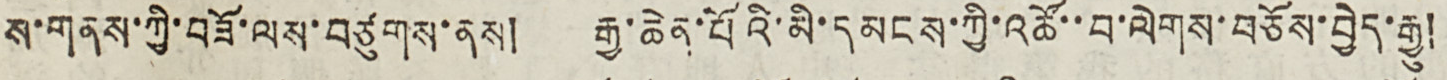ས་གནས་ཀྱི་བཟོ་ལས་བཙུགས་ནས། རྒྱ་ཆེན་པོའི་མི་དམངས་ཀྱི་འཚོ་་བ་ལེགས་བཅོས་བྱེད་རྒྱུ།
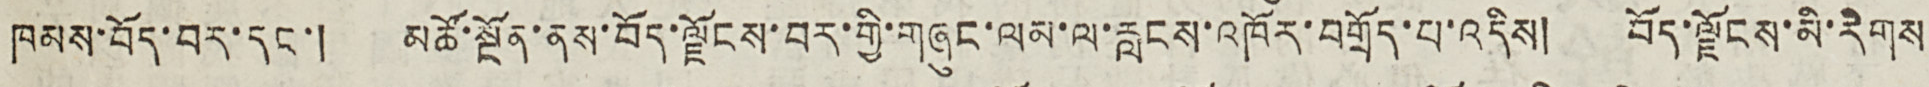ཁམས་བོད་བར་དང་། མཚོ་སྔོན་ནས་བོད་ལྗོངས་བར་གྱི་གཞུང་ལམ་ལ་རླངས་འཁོར་བགྲོད་པ་འདིས། བོད་ལྗོངས་མི་རིགས
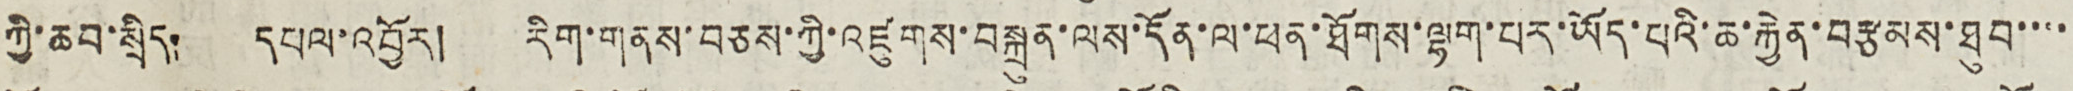ཀྱི་ཆབ་སྲིད། དཔལ་འབྱོར། རིག་གནས་བཅས་ཀྱི་འཛུགས་བསྐྲུན་ལས་དོན་ལ་ཕན་ཐོགས་ལྷག་པར་ཡོད་པའི་ཆ་རྐྱེན་བརྩམས་ཐུབ་་་་
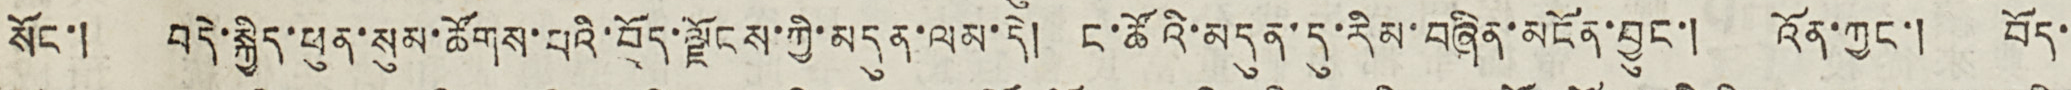སོང་། བདེ་སྐྱིད་ཕུན་སུམ་ཚོགས་པའི་བོད་ལྗོངས་ཀྱི་མདུན་ལམ་དེ། ང་ཚོའི་མདུན་དུ་རིམ་བཞིན་མངོན་བྱུང་། འོན་ཀྱང་། བོད་
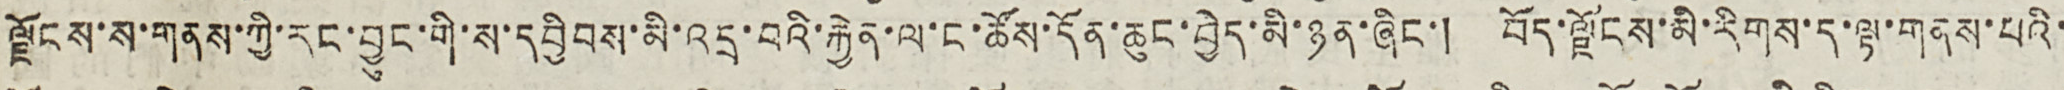ལྗོངས་ས་གནས་ཀྱི་རང་བྱུང་གི་ས་དབྱིབས་མི་འདྲ་བའི་རྐྱེན་ལ་ང་ཚོས་དོན་ཆུང་བྱེད་མི་ཉན་ཞིང་། བོད་ལྗོངས་མི་རིགས་ད་ལྟ་གནས་པའི་
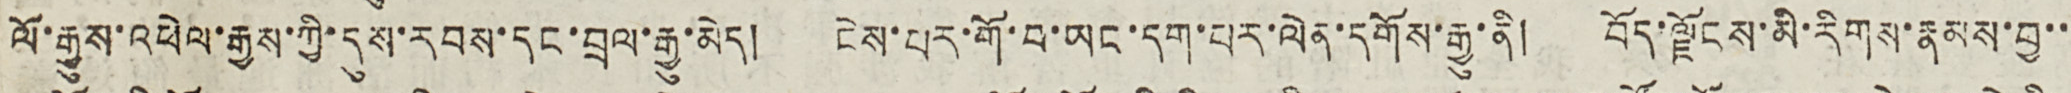ལོ་རྒྱུས་འཕེལ་རྒྱས་ཀྱི་དུས་རབས་དང་བྲལ་རྒྱུ་མེད། ངེས་པར་གོ་བ་ཡང་དག་པར་ལེན་དགོས་རྒྱུ་ནི། བོད་ལྗོངས་མི་རིགས་རྣམས་བྱ་་
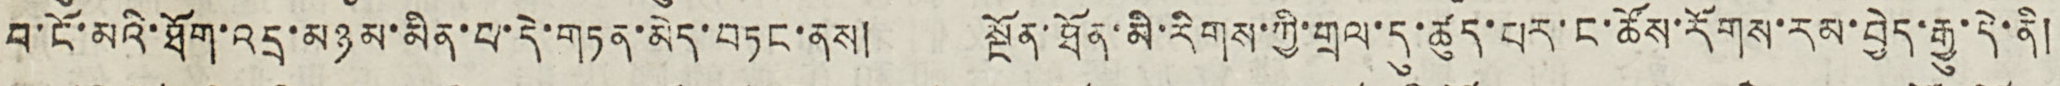བ་ངོ་མའི་ཐོག་འདྲ་མཉམ་མིན་པ་དེ་གཏན་མེད་བཏང་ནས། སྔོན་ཐོན་མི་རིགས་ཀྱི་གྲལ་དུ་ཚུད་པར་ང་ཚོས་རོགས་རམ་བྱེད་རྒྱུ་དེ་ནི།
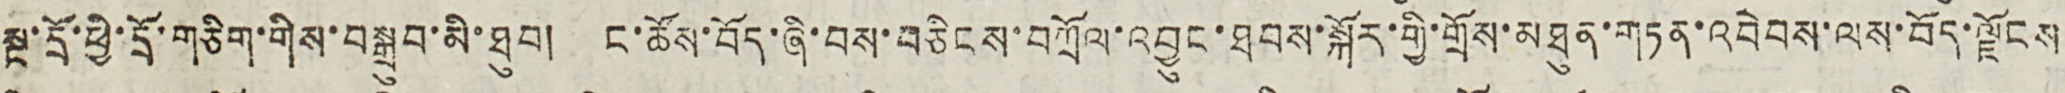སྔ་དྲོ་ཕྱི་དྲོ་གཅིག་གིས་བསྒྲུབ་མི་ཐུབ། ང་ཚོས་བོད་ཞི་བས་བཅིངས་བཀྲོལ་འབྱུང་ཐབས་སྐོར་གྱི་གྲོས་མཐུན་གཏན་འབེབས་ལས་བོད་ལྗོངས
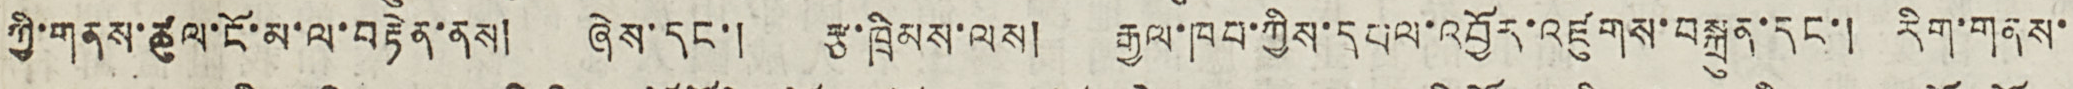ཀྱི་གནས་ཚུལ་ངོ་མ་ལ་བརྟེན་ནས། ཞེས་དང་། རྩ་ཁྲིམས་ལས། རྒྱལ་ཁབ་ཀྱིས་དཔལ་འབྱོར་འཛུགས་བསྐྲུན་དང་། རིག་གནས་
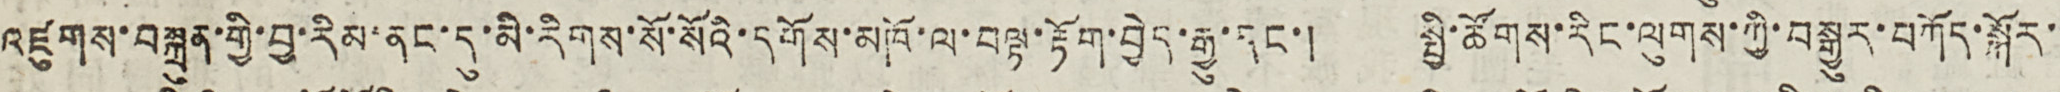འཛུགས་བསྐྲུན་གྱི་བྱ་རིམ་ནང་དུ་མི་རིགས་སོ་སོའི་དགོས་མཁོ་ལ་བལྟ་རྟོག་བྱེད་རྒྱུ་དང་། སྤྱི་ཚོགས་རིང་ལུགས་ཀྱི་བསྒྱུར་བཀོད་སྐོར་
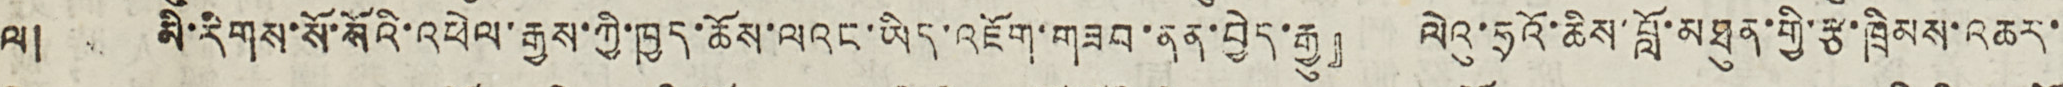ལ། མི་རིགས་སོ་སོའི་འཕེལ་རྒྱས་ཀྱི་ཁྱད་ཆོས་ལའང་ཡིད་འཇོག་གཟབ་ནན་བྱེད་རྒྱུ』 ལེའུ་ཧྲའོ་ཆིས་བློ་མཐུན་གྱི་རྩ་ཁྲིམས་འཆར་
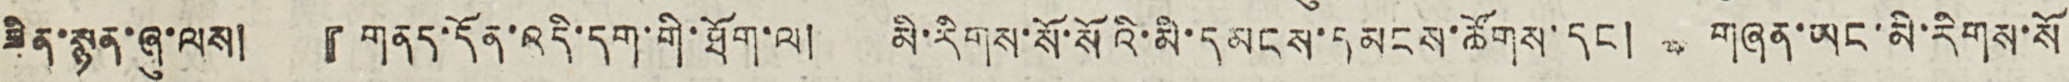ཟིན་སྙན་ཞུ་ལས། 『གནད་དོན་འདི་དག་གི་ཐོག་ལ། མི་རིགས་སོ་སོའི་མི་དམངས་དམངས་ཚོགས་དང ། གཞན་ཡང་མི་རིགས་སོ
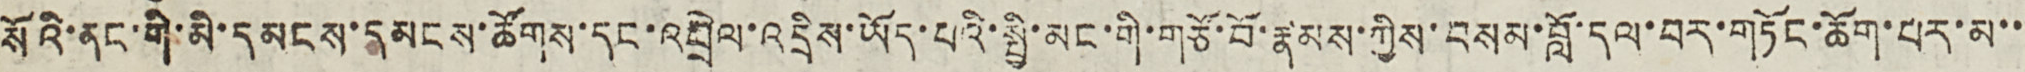སོའི་ནང་གི་མི་དམངས་དམངས་ཚོགས་དང་འབྲེལ་འདྲིས་ཡོད་པའི་སྤྱི་མང་གི་གཙོ་བོ་རྣམས་ཀྱིས་བསམ་བློ་དལ་བར་གཏོང་ཆོག་པར་མ་་
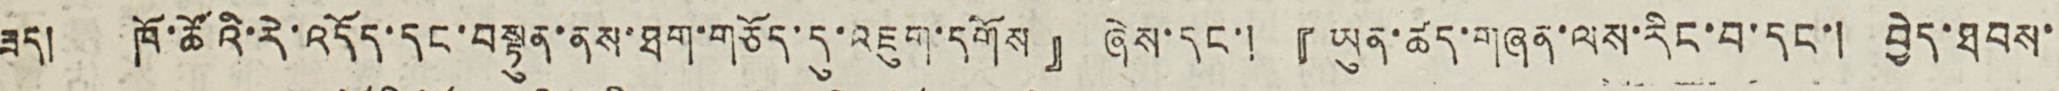ཟད། ཁོ་ཚོའི་རེ་འདོད་དང་བསྟུན་ནས་ཐག་གཅོད་དུ་འཇུག་དགོས』ཞེས་དང་། 『ཡུན་ཚད་གཞན་ལས་རིང་བ་དང་། བྱེད་ཐབས་
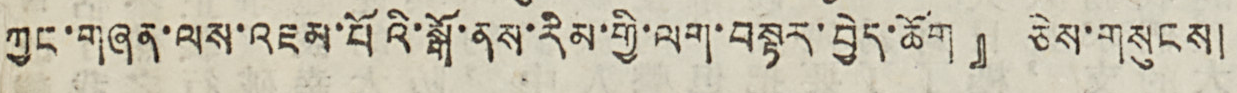ཀྱང་གཞན་ལས་འཇམ་པོའི་སྒོ་ནས་རིམ་གྱི་ལག་བསྟར་བྱེད་ཆོག』ཅེས་གསུངས།
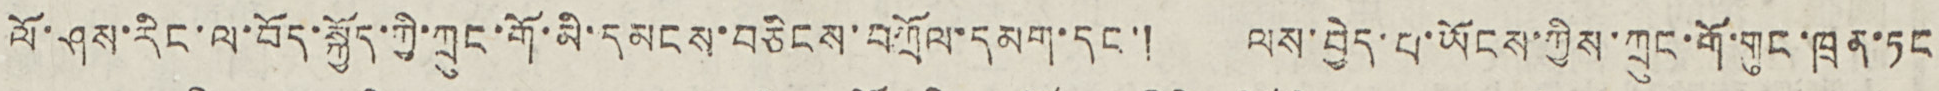ལོ་ཤས་རིང་ལ་བོད་སྐྱོད་ཀྱི་ཀྲུང་གོ་མི་དམངས་བཅིངས་བཀྲོལ་དམག་དང་། ལས་བྱེད་པ་ཡོངས་ཀྱིས་ཀྲུང་གོ་གུང་ཁྲན་ཏང
